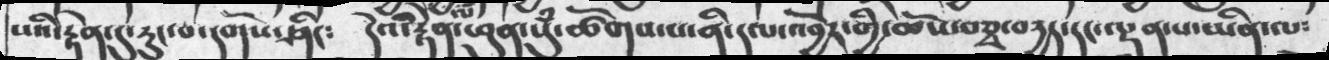པའི་རྟེན་དུ་རུང་པ་དགོས་ཤིང༴  དེའི་རྟེན་ཕུན་སུཾ་ཚོགས་པ་ནི་དལ་འབྱོར་གྱི་ཆོས་བཅྭ་བདྱད་དང་ལྡན་པ་ཡིན་ལ༴
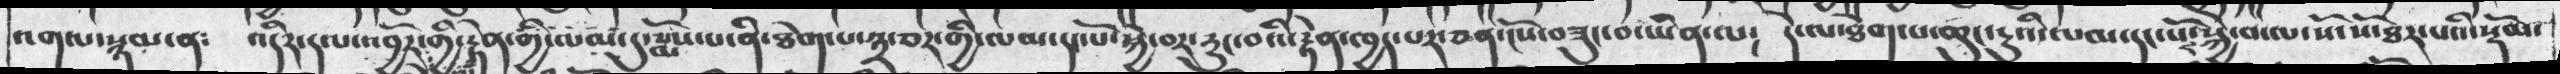འགལ་སྙམ་ན༴  འདིར་དལ་འབྱོར་གྱི་རྟེན་གྱི་ལམ་་དུ་སྨོས་པ་ནི་ཐེག་པ་༣བར་གྱི་ལམ་དང་པོ་སྐྱེ་རུང་བའི་རྟེན་ཁྱད་པར་ཅན་ངོས་བཟུང་བ་ཡིན་ལ༴  དེ་ལ་ཐེག་པ་ཆུང་ངུའི་ལམ་དང་སོ་སྐྱེ་བ་ལ་སོ་སོ་ཐར་པའི་སྡོམ་
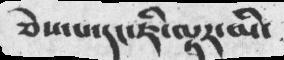ཅེས་པ་དང་ཇི་ལྟར་མི་
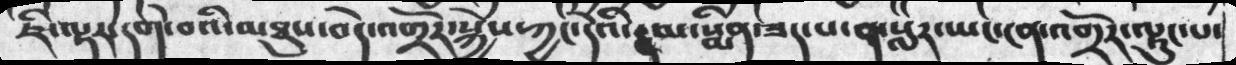ཇི་ལྟར་དགེ་བའི་མཐུས་བདེ་འགྲོར་སྐྱེས་ཀྱང་དེའི་མ་རྣཾསྨིན་ཟད་པ་སླར་ཡང་ངན་འགྲོ་འགྲོར་ལྷུང་པ་
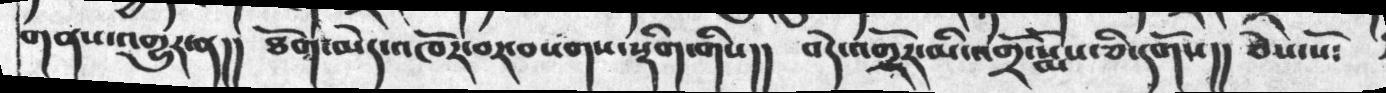གནད་འགྱུར་ན།།  ཐོག་མེད་འཁོར་བར་བསགས་སྡིག་གིས།། བདེ་འགྲོར་མི་འགྲོ་སྨོས་ཅི་དགོས།།  ཅེས་སོ༴
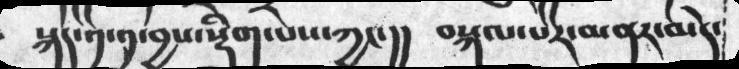སྐད་༡་༡་བྱས་སྡིག་པས་ཀྱང་།། བསྐལ་པར་མནར་མེད་
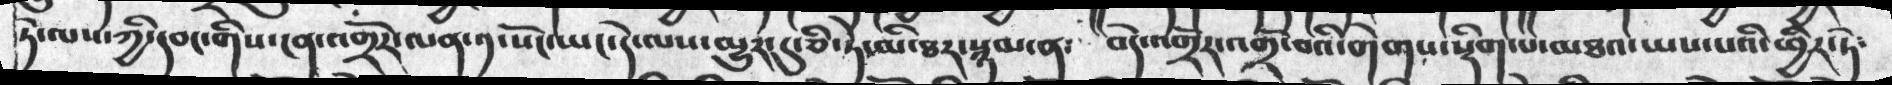ཏེ་ལས་ཀྱི་དབང་གིས་ངན་འགྲོར་ལན་༡་སོང་ཡང་དེ་ལས་མྱུར་དུ་ཅི་ཏེ་མི་ཐར་སྙམ་ན༴ བདེ་འགྲོར་འགྲོ་བའི་གེགས་སྡིག་པ་མཐའ་ཡས་པའི་ཕྱིར་ཏེ༴
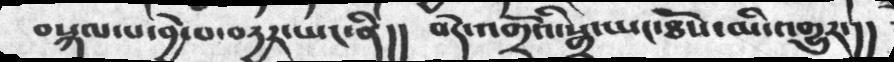བསྐལ་པ་བྱེ་བ་བདྱར་ཡང་ནི།། བདེ་འགྲོའི་སྒྲ་ཡང་ཐོས་མི་འགྱུར་།།
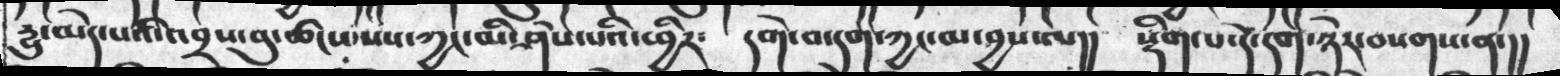རྱུ་མེད་པའི་འབྲས་བུ་ཚངས་པས་ཀྱང་མི་ཤེས་པའི་ཕྱིར༴ དགེ་བ་དག་ཀྱང་མ་བྱས་ལ།། སྡིག་པ་དེ་དག་ཉེར་བསགས་ན་།།
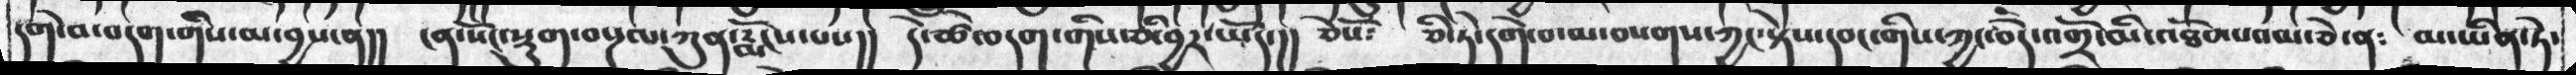དགེ་བ་བདག་གིས་མ་བྱས་ན།། ངན་སོང་སྡུག་བསྔལ་ཀུན་རྨོངས་པས།། དེ་ཚེ་བདག་གིས་ཅི་བྱར་ཡོད་།། ཅེསོ༴ ཅི་ཏེ་དགེ་བ་མ་བསགས་ཀྱང་སྟེས་དབང་གིས་ཀྱང་བདེ་འགྲོ་མི་འཐོབ་པའམ་ཅེ་ན༴ མ་ཡིན་ཏེ་
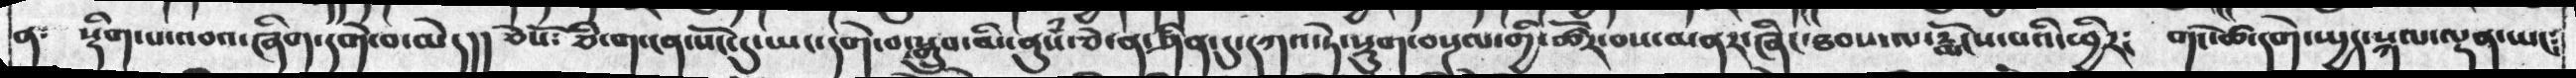ན༴ སྡིག་པ་འབའ་ཞིག་དགེ་བ་མེད།། ཅེསོ༴ ཅི་ག་ངན་སོང་དུ་ཡང་དགེ་བ་སྒྲུབ་མི་ནུསཾ་ཅེ་ན་ཤིན་དུ་དཀའ་ཏེ་སྡུག་བསྔལ་གྱི་ཚོར་བས་མནར་ཞིང་ཐབས་ལ་རྨོངས་པའི་ཕྱིར༴ གང་ཚེ་དགེ་སྤྱད་སྐལ་ལྡན་ཡང༴
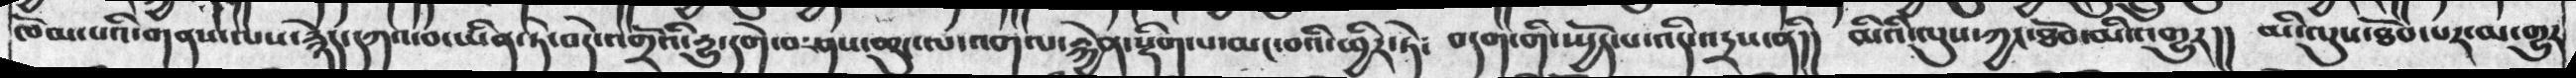ཁོམ་པའི་གནས་ལས་རྙེད་དཀའ་བ་ཡིན་ཏེ་བདེ་འགྲོའི་རྱུ་དགེ་བ་ཤས་ཆུང་ལ་འགལ་རྐྱེན་སྡིག་པ་མང་བའི་ཕྱིར་ཏེ༴ བདག་གི་སྤྱོད་པ་འདི་འདྲས་ནི།། མིའི་ལུས་ཀྱང་ཐོབ་མི་འགྱུར།། མི་ལུས་ཐོབ་པར་མ་གྱུར
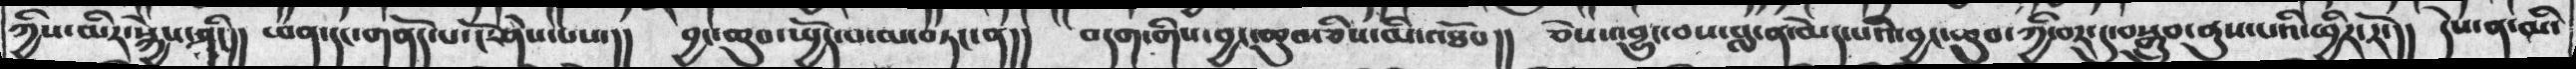ཀྱིས་མིར་སྐྱེས་ཤིང།། ཕན་དང་གནོད་པ་ངོ་ཤེས་པས་།། བྱང་ཆུབ་ཡྱོད་པ་མ་བཏང་ན།། བདག་གིས་བྱང་ཆུབ་ཅེས་མི་འཐོབ།། ཅེས་འབྱུང་བས་བླ་ན་མེད་པའི་བྱང་ཆུབཀྱི་བར་དུ་བསྒྲུབ་ནུས་པའི་ཕྱིར་རོ་།། དེས་ན་མི་
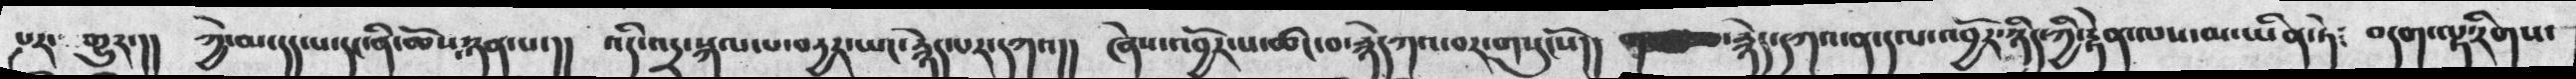པར་ གྱུར་།།  ཀྱེ་མ་དད་པ་དང་ནི་ཆོས་ཉན་པ་།།  འདི་འདྲ་སྐལ་པ་བདྱར་ཡང་རྙེད་པར་དཀའ།།  ཞེས་འབྱོར་པ་ཚང་བ་རྙེདཀའ་བར་གསུངསོ།།  རྙེད་དཀའ་ན་དལ་འབྱོར་ཉིད་ཀྱི་རྟེན་ལས་མ་ཡིན་ཏེ༴  བདག་ལྟ་རིགས་
